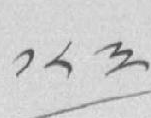༡༨༣
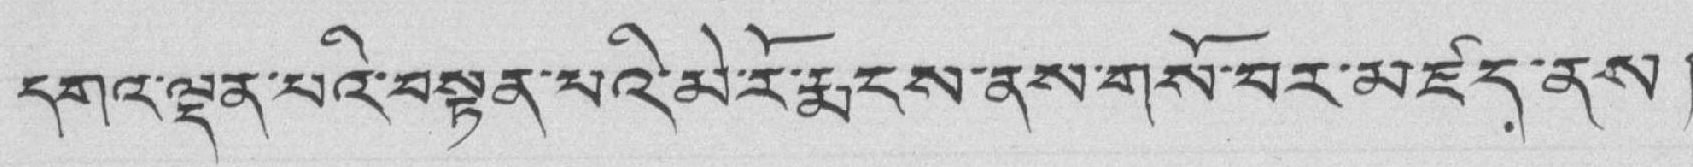དགའ་ལྡན་པའི་བསྟན་པའི་མེ་རོ་རྨངས་ནས་གསོ་བར་མཛད་ནས།
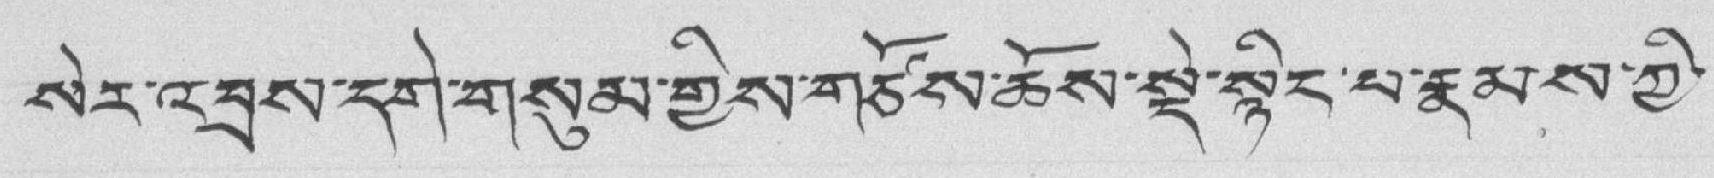སེར་འབྲས་དགེ་གསུམ་གྱིས་གཙོས་ཆོས་སྡེ་སྙིང་པ་རྣམས་ཀྱི་
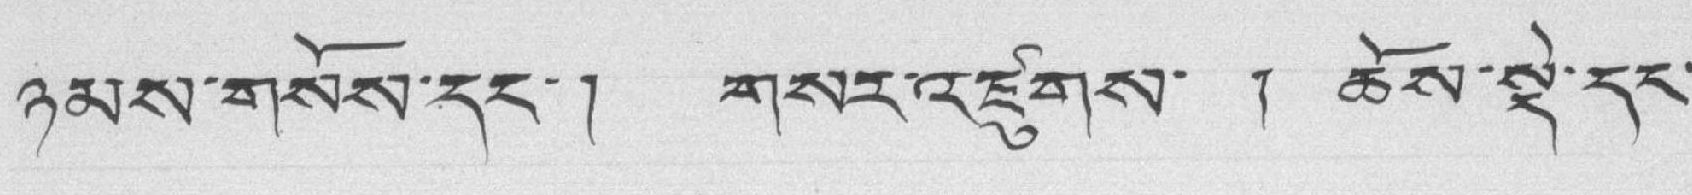ཉམས་གསོས་དང་། གསར་འཛུགས་ ། ཆོས་སྡེ་དང་
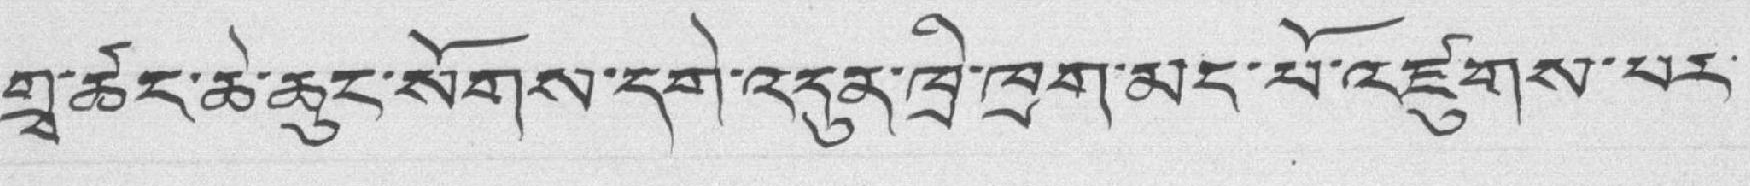གྲྭ་ཚང་ཆེ་ཆུང་སོགས་དགེ་འདུན་ཁྲི་ཁྲག་མིང་པོ་འཛུགས་པར་
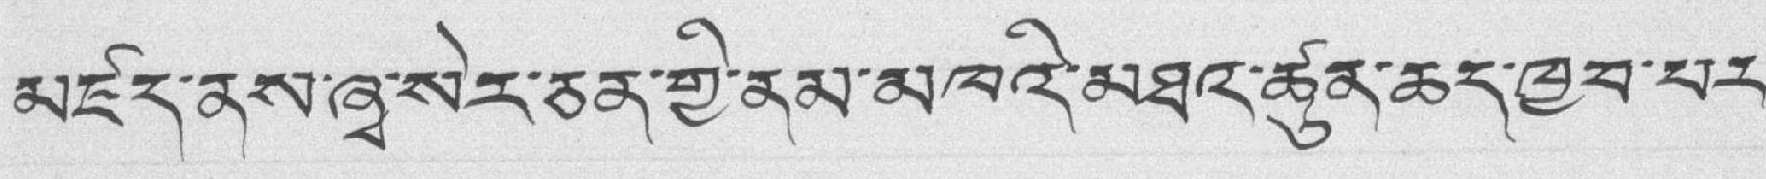མཛད་ནས་ཞྭ་སེར་ཅན་གྱི་ནམ་མཁའི་མཐའ་ཚུན་ཆད་ཁྱབ་པར་
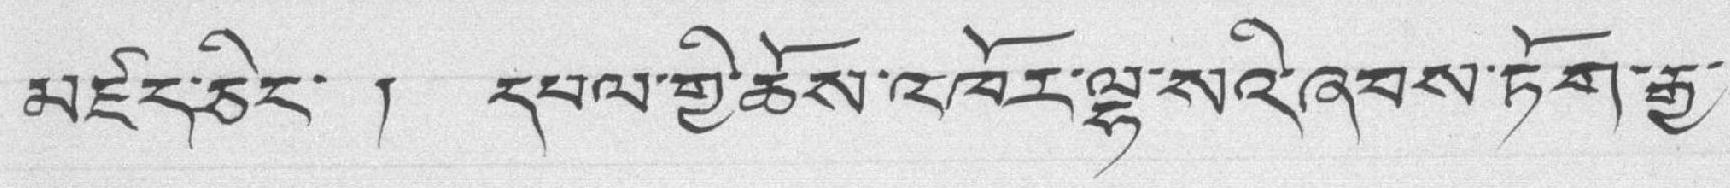མཛད་ཅིང་ ། དཔལ་གྱི་ཆོས་འཁོར་ལྷ་སའི་ཞབས་ཏོག་རྒྱ་
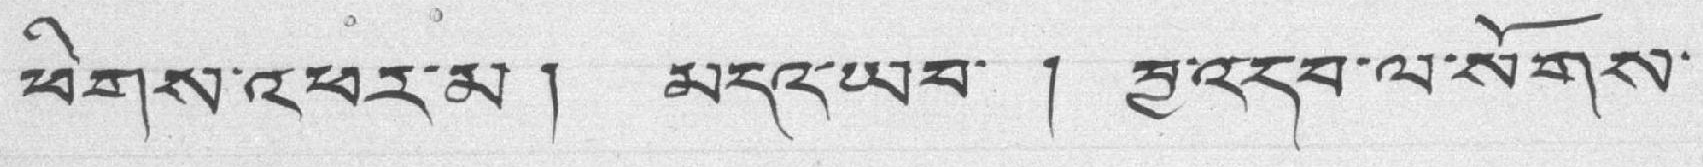ཕིགས་འཕར་མ ། མདའ་ཡབ་ ། བྱ་འདབ་ལ་སོགས་
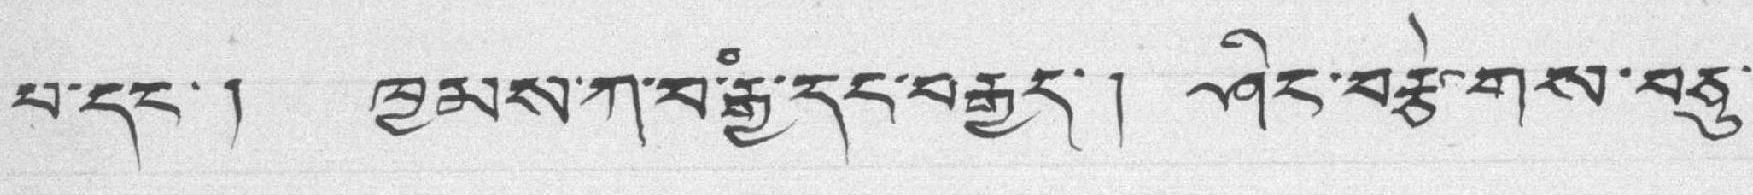པ་དང་། ཁྱམས་ཀ་བཾ་རྒྱ་དང་བརྒྱད་། ཤིང་བརྩེགས་བཅུ་
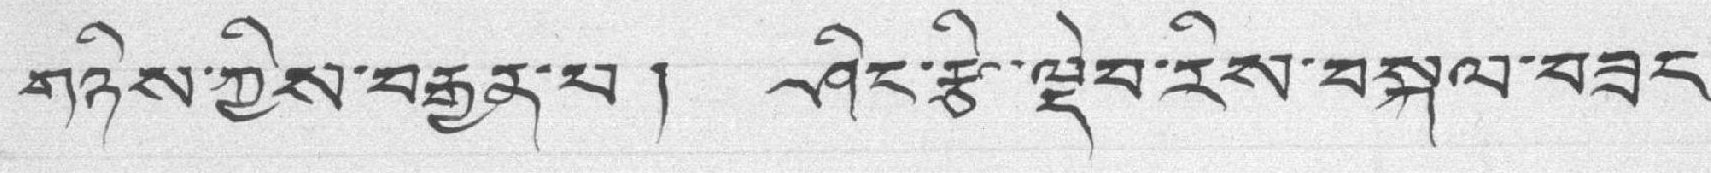གཉིས་ཀྱིས་བརྒྱན་པ། ཤིང་རྩི་ལྡེབ་རིས་བསྐལ་བཟང་
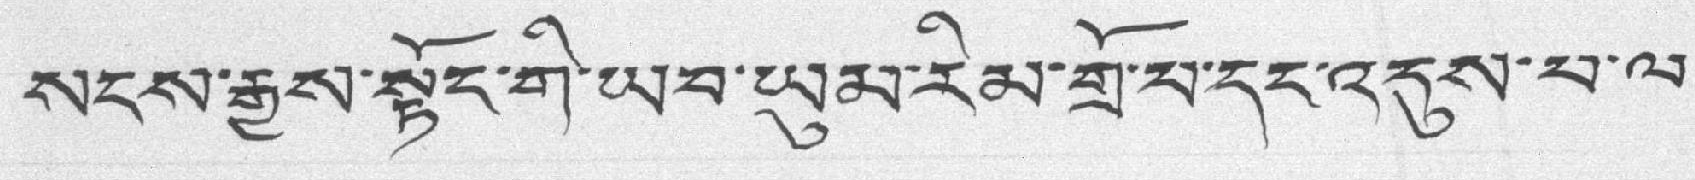སངས་རྒྱས་སྟོང་གི་ཡབ་ཡུམ་རིམ་གྲོ་པ་དང་འདུས་པ་ལ་
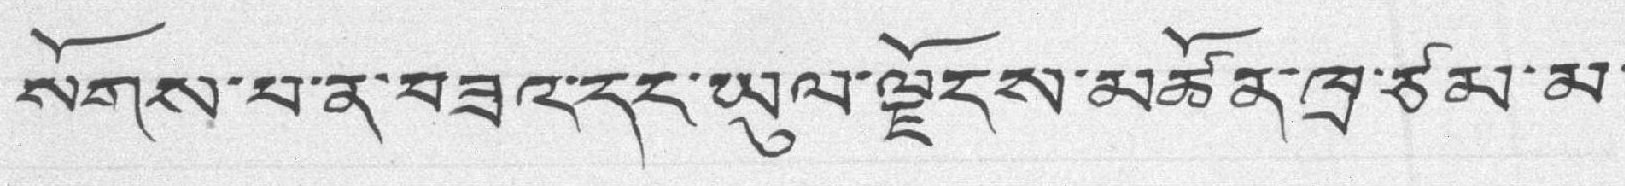སོགས་པ་ན་བཟའ་དང་ཡུལ་ལྗོངས་མཚོན་ཁྲ་ཙམ་མ་
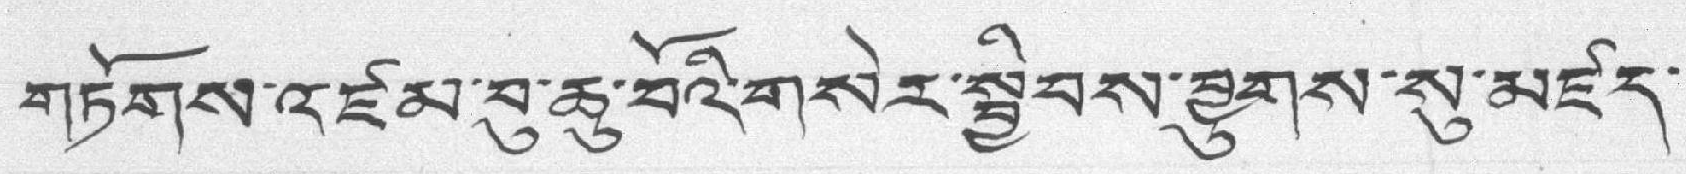གཏོགས་འཛམ་བུ་ཆུ་བོའི་གསེར་སྦྱིབས་བྱུགས་སུ་མཛད་
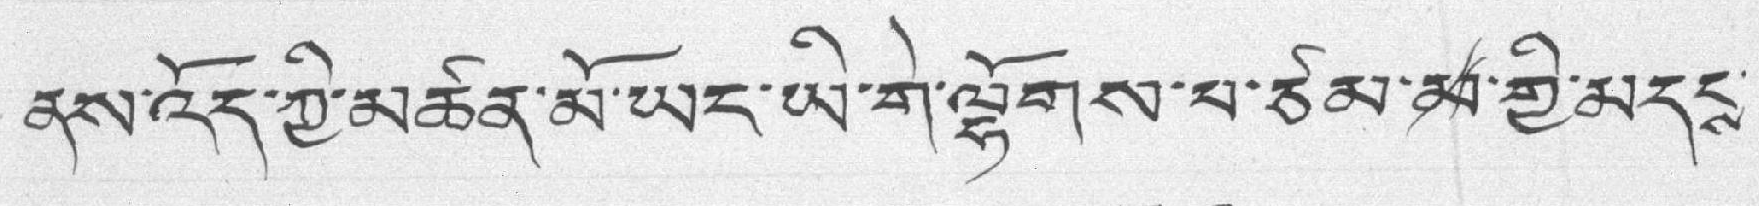ནས་འོད་ཀྱི་མཚན་མོ་ཡང་ཡི་གེ་ལྷོགས་པ་ཙམ་མ་གྱི་མདངས་
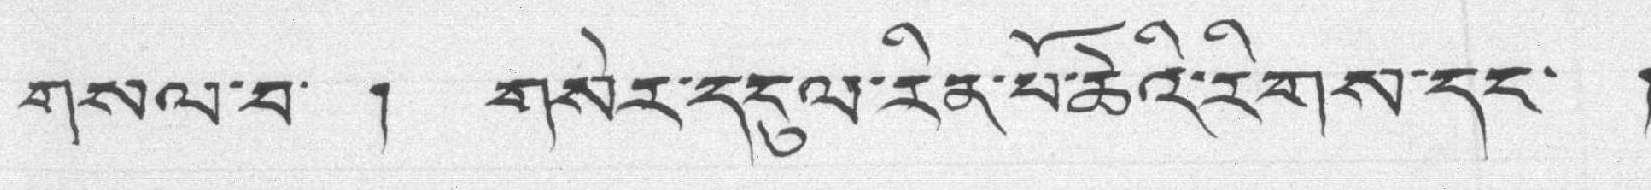གསལ་བ་ ། གསེར་དངུལ་རིན་པོ་ཆེའི་རིགས་དང་ །
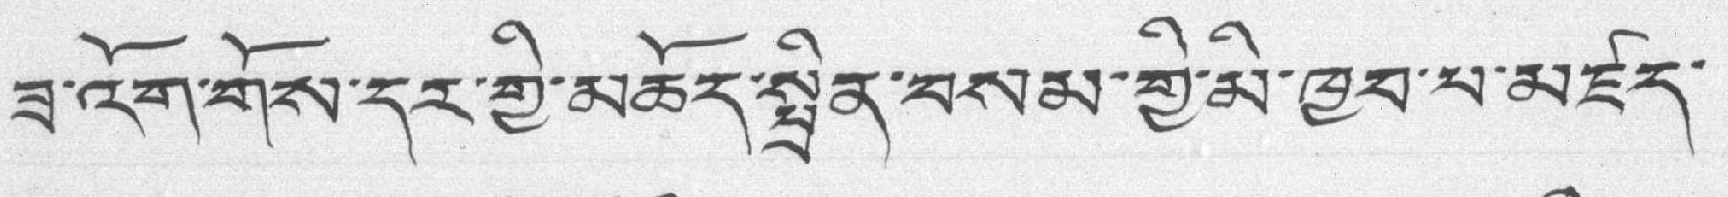ཟ་འོག་གོས་དར་གྱི་མཆོད་སྤྲིན་བསམ་གྱི་མི་ཁྱབ་པ་མཛད་
